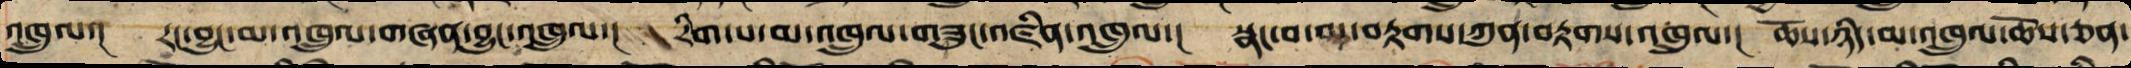འཁྲུལ་།  རང་བྱུང་མ་འཁྲུལ་གཞན་བྱུང་འཁྲུལ་།  རིག་པ་མ་འཁྲུལ་གཟུང་འཛིན་འཁྲུལ་།  སྣང་བ་མ་བརྟགས་ཀུན་བརྟགས་འཁྲུལ་།  ཆོས་ཉིད་མ་འཁྲུལ་ཆོས་ཅན་
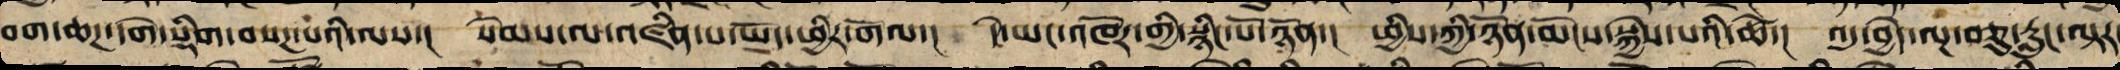བག་ཆཌ་དགེ་སྡིག་བསཌ་པའི་ལས་། སེམས་ལ་འཛིན་པ་སྤྱོད་ཕྱིར་གོལ་། དེ་ཡང་འཁོར་གྱི་སྙིང་པོ་ཉོན་། ཕྱིས་ཀྱི་ཉོན་མོངས་སྐྱེས་པའི་ཚེ་། འདུ་བྱེད་ལྔ་བཅུ་རླུང་ལྟར
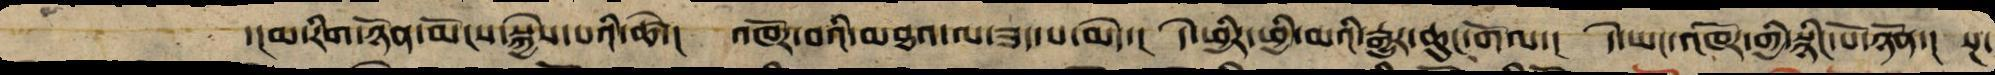་།མ་རིག་ཉོན་མོངས་སྐྱེས་པའི་ཚེ་། འཁོར་བའི་མཐའ་ལ་ཟད་པ་མེད་། དེ་ཕྱིར་ཕྱི་མའི་རྒྱར་ཆུང་གོལ་། དེ་ཡང་འཁོར་གྱི་སྙིང་པོ་ཉོན་། སྔ་
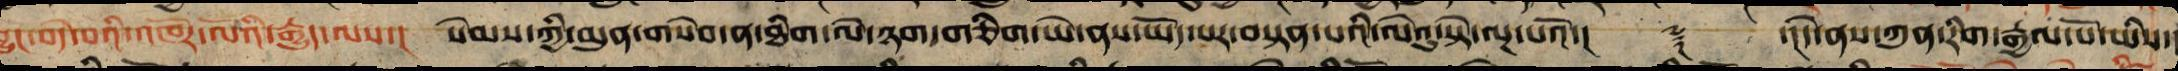བྱུང་བདེ་བའི་འཁོར་ལོའི་རྒྱུད་ལས་། སེམས་ཀྱི་མུན་གསེབ་ན་ཐིག་ལེ་ཉག་གཅིག་ཡེ་ནས་ཡོད་པར་བསྟན་པའི་ལེའུ་སྟེ་ལྔ་པའོ་།། ༈ ་།།དེ་ནས་ཀུན་རིག་རྒྱལ་པོ་ཡིས་
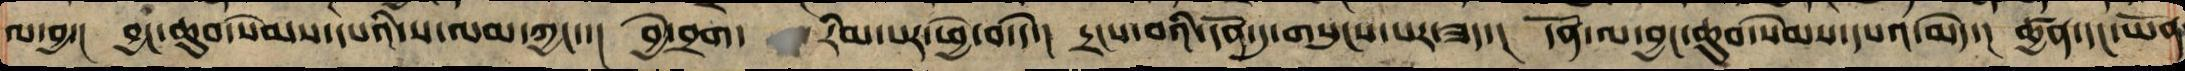ལ་བྱ་། བྱང་ཆུབ་སེམས་དཔའི་ས་ལམ་ཀྱང་་།  བྱེ་བྲག་ རིམ་པར་ཕྱེ་བ་དེ་།  དྲངས་བའི་དོན་དུ་གསུངས་པར་ཟད་།  དོན་ལ་བྱང་ཆུབ་སེམས་དཔའ་མེད་།  ྱཚན་དང་ཡོན་
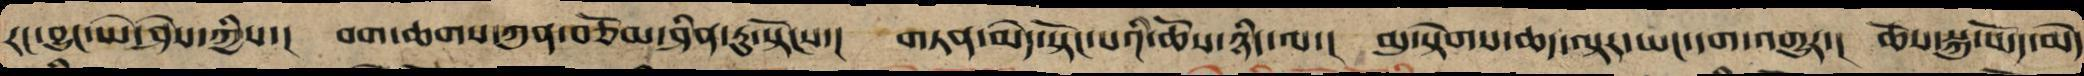རང་བྱུང་ཡེ་ཤེས་ཀྱིས་། བག་ཆགས་ཀུན་བཅོམ་ཤིན་ཏུ་སྟོངས་། གཏན་མེད་སྟོང་པའི་ཆོས་ཉིད་ལ་། མུ་སྟེགས་ཆད་ལྟར་ཡང་དག་འགྱུར་། ཆོས་སྐུ་ཡོད་མེད
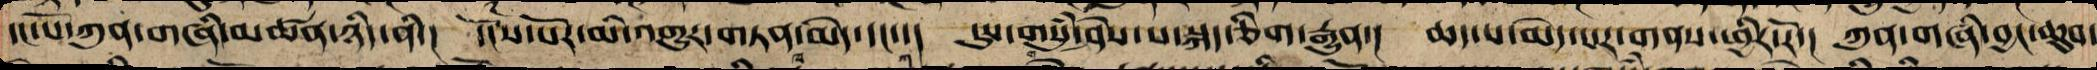དང་པོ་ཀུན་གཞིའི་མཚན་ཉིད་ནི་། དངོས་པོར་མི་འགྱུར་གཏན་མེད་དང་་། དུས་གསུམ་ཤེས་པ་སྐད་ཅིག་རྒྱུན་། ཆད་པ་མེད་པར་གནས་ཕྱིར་རོ་། ཀུན་གཞི་བྱང་ཆུབ་
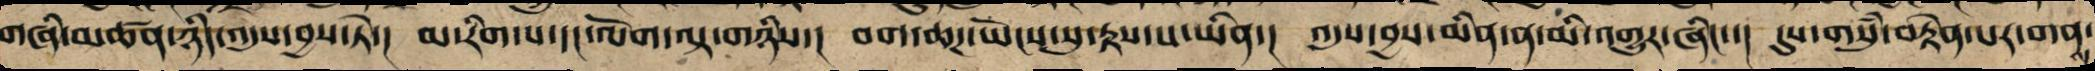གཞིའི་མཚན་ཉིད་འདུས་བྱས་སྟེ། མ་རིག་པ་དང་ལོག་ལྟ་གཉིས། བག་ཆགས་ཡོངས་སུ་བརྟས་པ་ཡིན། འདུས་བྱས་མིན་ན་མི་འགྱུར་ཞིང་། དུས་གསུཾ་བརྟེན་པར་གནས་
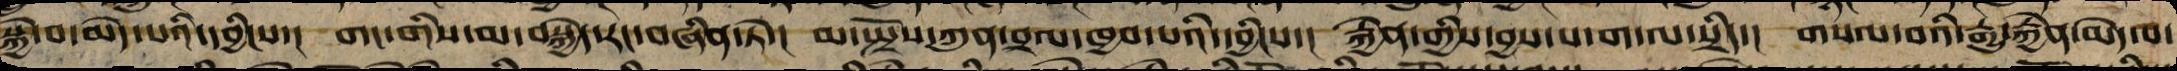སྐྱེ་བ་མེད་པའི་དབྱིངས་། གང་གིས་མ་བསྐྱེད་རང་བཞིན་ཏེ་། མ་སྤྲོས་ཀུན་བྲལ་ཁྱབ་པའི་དབྱིངས་། རྐྱེན་གྱིས་བྱས་པ་ག་ལ་སྲིད་། གསལ་བའི་རྒྱུ་རྐྱེན་མེད་པ་
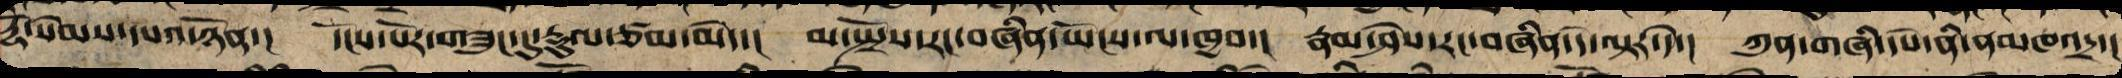རྡོེ་སེམས་དཔའ་ཉོན་། དངོས་པོར་གཟུང་དུ་རྡུལ་ཙམ་མེད་། མ་སྤྲོས་རང་བཞིན་ཡོངས་ལ་ཁྱབ་། རྣམ་ཤེས་རང་བཞིན་དེ་ལྟར་ཏེ་། ཀུན་གཞི་དཔེ་ནི་ནམ་མཁའ་འདྲ་།
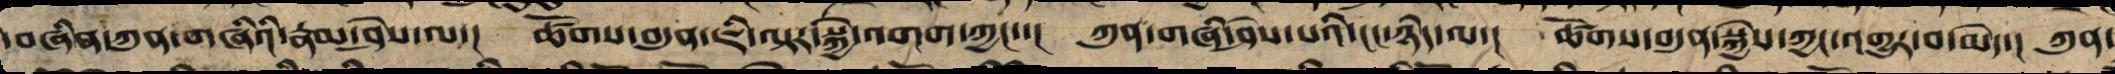་བཞིན་ཀུན་གཞིའི་རྣམ་ཤེས་ལ་། ཚོགས་བདུན་ཇི་ལྟར་སྐྱེ་འགག་ཀྱང་་། ཀུན་གཞི་ཤེས་པའི་ངང་ཉིད་ལས་། ཚོགས་བདུན་སྐྱེས་ཀྱང་འགྱུར་བ་མེད་། ཀུན་
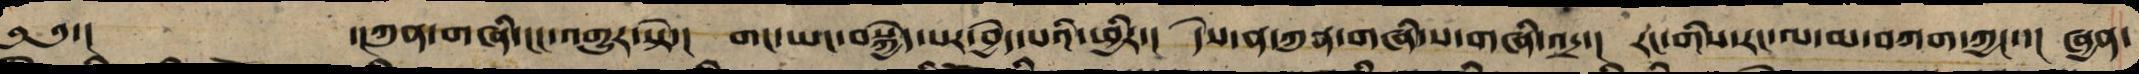༄༄་།      ་།ཀུན་གཞི་ངང་འགྱུར་སྟེ་།  གང་ཡང་བསྐྱེད་པར་བྱེད་པའི་ཕྱིར་།  དེས་ན་ཀུན་གཞི་ས་གཞི་འདྲ་།  རང་གིས་རང་ལ་མ་བཀག་ཀྱང་་། ཞྱན་
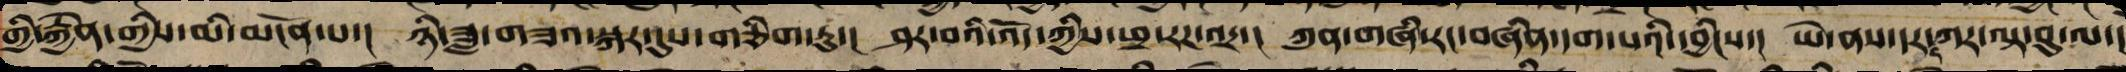གྱི་རྐྱེན་གྱིས་མི་མངོན་པ་།  ཉི་ཟླ་གཟའ་སྐར་དུས་གཅིག་ཏུ་།  ཤར་བའི་འོད་ཀྱིས་ཕྲ་རཌ་འདྲ་།  ཀུན་གཞི་རང་བཞིན་དག་པའི་དབྱིངས་།  ཡེ་ནས་དར་ཀར་ལྟ་བུ་ལ་།
